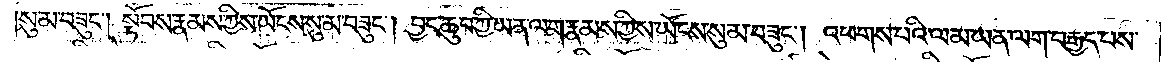སུ་མ་བཟུང༌། སྟོབས་རྣམས་ཀྱིས་ཡོངས་སུ་མ་བཟུང༌། བྱང་ཆུབ་ཀྱི་ཡན་ལག་རྣམས་ཀྱིས་ཡོངས་སུ་མ་བཟུང༌། འཕགས་པའི་ལམ་ཡན་ལག་བརྒྱད་པས་
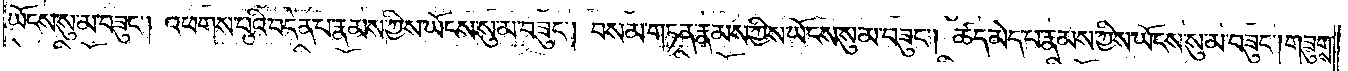ཡོངས་སུ་མ་བཟུང༌། འཕགས་པའི་བདེན་པ་རྣམས་ཀྱིས་ཡོངས་སུ་མ་བཟུང༌། བསམ་གཏན་རྣམས་ཀྱིས་ཡོངས་སུ་མ་བཟུང༌། ཚད་མེད་པ་རྣམས་ཀྱིས་ཡོངས་སུ་མ་བཟུང༌། གཟུགས་
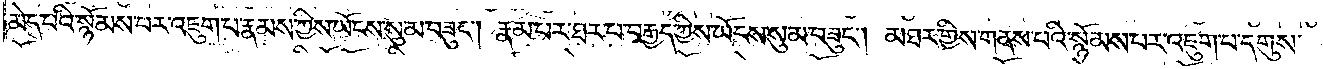མེད་པའི་སྙོམས་པར་འཇུག་པ་རྣམས་ཀྱིས་ཡོངས་སུ་མ་བཟུང༌། རྣམ་པར་ཐར་པ་བརྒྱད་ཀྱིས་ཡོངས་སུ་མ་བཟུང༌། མཐར་གྱིས་གནས་པའི་སྙོམས་པར་འཇུག་པ་དགུས་
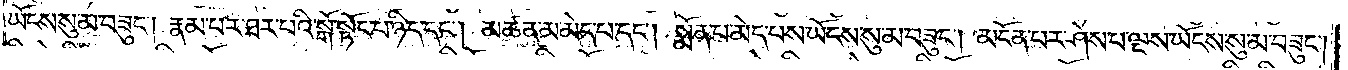ཡོངས་སུ་མ་བཟུང༌། རྣམ་པར་ཐར་པའི་སྒོ་སྟོང་པ་ཉིད་དང༌། མཚན་མ་མེད་པ་དང༌། སྨོན་པ་མེད་པས་ཡོངས་སུ་མ་བཟུང༌། མངོན་པར་ཤེས་པ་ལྔས་ཡོངས་སུ་མ་བཟུང༌།
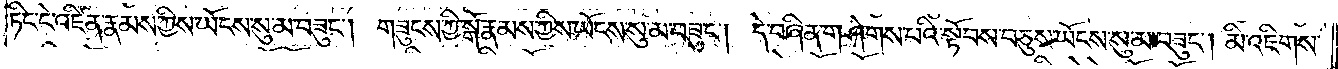ཏིང་ངེ་འཛིན་རྣམས་ཀྱིས་ཡོངས་སུ་མ་བཟུང༌། གཟུངས་ཀྱི་སྒོ་རྣམས་ཀྱིས་ཡོངས་སུ་མ་བཟུང༌། དེ་བཞིན་གཤེགས་པའི་སྟོབས་བཅུས་ཡོངས་སུ་མ་བཟུང༌། མི་འཇིགས་
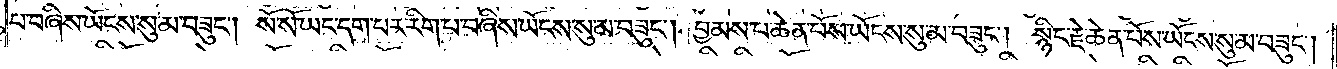པ་བཞིས་ཡོངས་སུ་མ་བཟུང༌། སོ་སོ་ཡང་དག་པར་རིག་པ་བཞིས་ཡོངས་སུ་མ་བཟུང༌། བྱམས་པ་ཆེན་པོས་ཡོངས་སུ་མ་བཟུང༌། སྙིང་རྗེ་ཆེན་པོས་ཡོངས་སུ་མ་བཟུང༌།
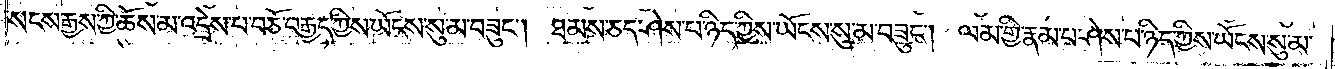སངས་རྒྱས་ཀྱི་ཆོས་མ་འདྲེས་པ་བཅོ་བརྒྱད་ཀྱིས་ཡོངས་སུ་མ་བཟུང༌། ཐམས་ཅད་ཤེས་པ་ཉིད་ཀྱིས་ཡོངས་སུ་མ་བཟུང༌། ལམ་གྱི་རྣམ་པ་ཤེས་པ་ཉིད་ཀྱིས་ཡོངས་སུ་མ་
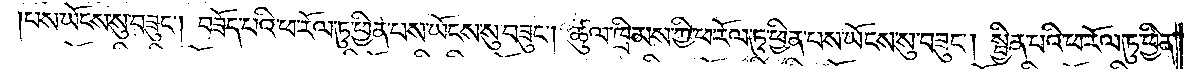པས་ཡོངས་སུ་བཟུང༌། བཟོད་པའི་ཕ་རོལ་ཏུ་ཕྱིན་པས་ཡོངས་སུ་བཟུང༌། ཚུལ་ཁྲིམས་ཀྱི་ཕ་རོལ་ཏུ་ཕྱིན་པས་ཡོངས་སུ་བཟུང༌། སྦྱིན་པའི་ཕ་རོལ་ཏུ་ཕྱིན་
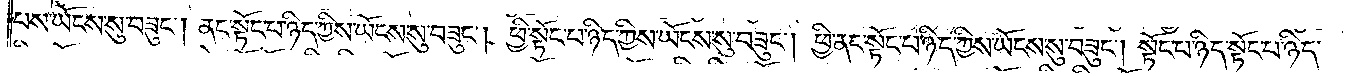པས་ཡོངས་སུ་བཟུང༌། ནང་སྟོང་པ་ཉིད་ཀྱིས་ཡོངས་སུ་བཟུང༌། ཕྱི་སྟོང་པ་ཉིད་ཀྱིས་ཡོངས་སུ་བཟུང༌། ཕྱི་ནང་སྟོང་པ་ཉིད་ཀྱིས་ཡོངས་སུ་བཟུང༌། སྟོང་པ་ཉིད་སྟོང་པ་ཉིད་
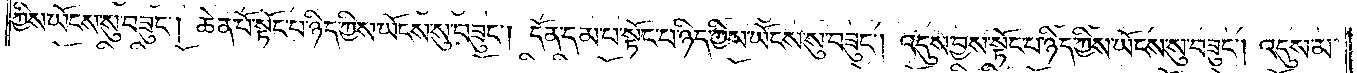ཀྱིས་ཡོངས་སུ་བཟུང༌། ཆེན་པོ་སྟོང་པ་ཉིད་ཀྱིས་ཡོངས་སུ་བཟུང༌། དོན་དམ་པ་སྟོང་པ་ཉིད་ཀྱིས་ཡོངས་སུ་བཟུང༌། འདུས་བྱས་སྟོང་པ་ཉིད་ཀྱིས་ཡོངས་སུ་བཟུང༌། འདུས་མ་
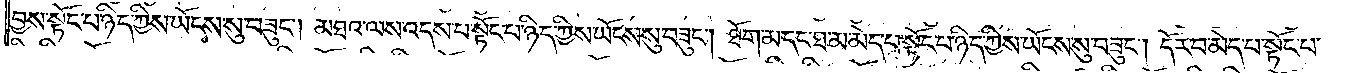བྱས་སྟོང་པ་ཉིད་ཀྱིས་ཡོངས་སུ་བཟུང༌། མཐའ་ལས་འདས་པ་སྟོང་པ་ཉིད་ཀྱིས་ཡོངས་སུ་བཟུང༌། ཐོག་མ་དང་ཐ་མ་མེད་པ་སྟོང་པ་ཉིད་ཀྱིས་ཡོངས་སུ་བཟུང༌། དོར་བ་མེད་པ་སྟོང་པ་
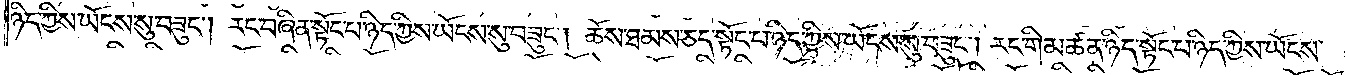ཉིད་ཀྱིས་ཡོངས་སུ་བཟུང༌། རང་བཞིན་སྟོང་པ་ཉིད་ཀྱིས་ཡོངས་སུ་བཟུང༌། ཆོས་ཐམས་ཅད་སྟོང་པ་ཉིད་ཀྱིས་ཡོངས་སུ་བཟུང༌། རང་གི་མཚན་ཉིད་སྟོང་པ་ཉིད་ཀྱིས་ཡོངས་
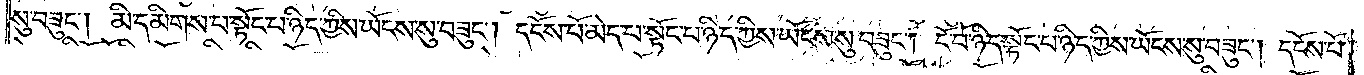སུ་བཟུང༌། མི་དམིགས་པ་སྟོང་པ་ཉིད་ཀྱིས་ཡོངས་སུ་བཟུང༌། དངོས་པོ་མེད་པ་སྟོང་པ་ཉིད་ཀྱིས་ཡོངས་སུ་བཟུང༌། ངོ་བོ་ཉིད་སྟོང་པ་ཉིད་ཀྱིས་ཡོངས་སུ་བཟུང༌། དངོས་པོ་
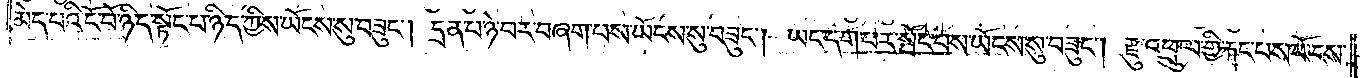མེད་པའི་ངོ་བོ་ཉིད་སྟོང་པ་ཉིད་ཀྱིས་ཡོངས་སུ་བཟུང༌། དྲན་པ་ཉེ་བར་བཞག་པས་ཡོངས་སུ་བཟུང༌། ཡང་དག་པར་སྤོང་བས་ཡོངས་སུ་བཟུང༌། རྫུ་འཕྲུལ་གྱི་རྐང་པས་ཡོངས་
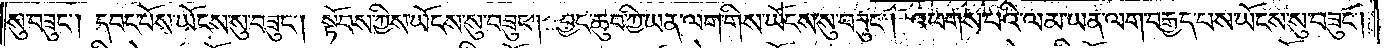སུ་བཟུང༌། དབང་པོས་ཡོངས་སུ་བཟུང༌། སྟོབས་ཀྱིས་ཡོངས་སུ་བཟུང༌། བྱང་ཆུབ་ཀྱི་ཡན་ལག་གིས་ཡོངས་སུ་བཟུང༌། འཕགས་པའི་ལམ་ཡན་ལག་བརྒྱད་པས་ཡོངས་སུ་བཟུང༌།
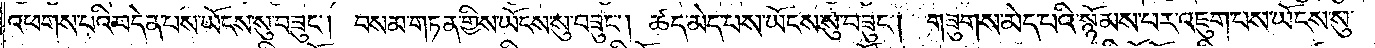འཕགས་པའི་བདེན་པས་ཡོངས་སུ་བཟུང༌། བསམ་གཏན་གྱིས་ཡོངས་སུ་བཟུང༌། ཚད་མེད་པས་ཡོངས་སུ་བཟུང༌། གཟུགས་མེད་པའི་སྙོམས་པར་འཇུག་པས་ཡོངས་སུ་
